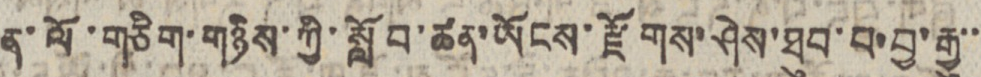ན་ལོ་གཅིག་གཉིས་ཀྱི་སློབ་ཚན་ཡོངས་རྫོགས་ཤེས་ཐུབ་པ་བྱ་རྒྱུ་་་
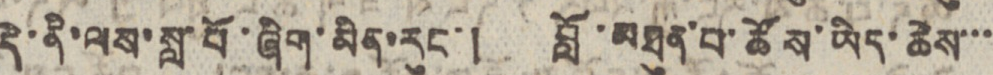དེ་ནི་ལས་སླ་པོ་ཞིག་མིན་རུང་། བློ་མཐུན་པ་ཚོས་ཡིད་ཆེས་་་
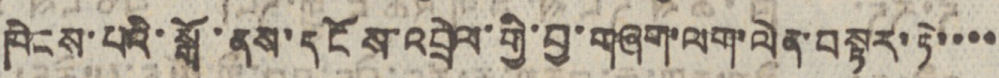ཁེངས་པའི་སྒོ་ནས་དངོས་འབྲེལ་གྱི་བྱ་གཞག་ལག་ལེན་བསྟར་ཏེ་་་་
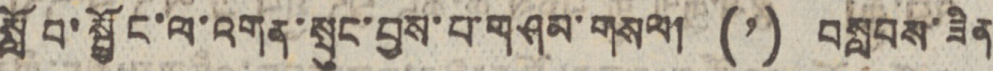སློབ་སྦྱོང་ལ་འགན་སྲུང་བྱས་པ་གཤམ་གསལ། (༡) བསླབས་ཟིན
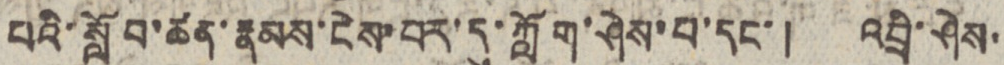པའི་སློབ་ཚན་རྣམས་ངེས་པར་དུ་ཀློག་ཤེས་པ་དང་། འབྲི་ཤེས་
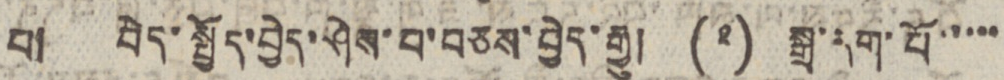པ། བེད་སྤྱོད་བྱེད་ཤེས་པ་བཅས་བྱེད་རྒྱུ། (༢) སྒྲ་དག་པོ་་་་་
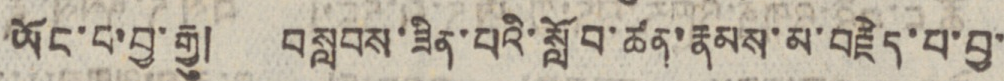ཡོང་བ་བྱ་རྒྱུ། བསླབས་ཟིན་པའི་སློབ་ཚན་རྣམས་མ་བརྗེད་པ་བྱ་
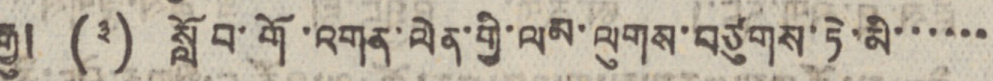རྒྱུ། (༣) སློབ་གོ་འགན་ལེན་གྱི་ལམ་ལུགས་བཙུགས་ཏེ་མི་་་་་་
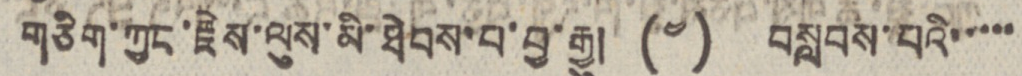གཅིག་ཀྱང་རྗེས་ལུས་མི་ཐེབས་བ་བྱ་རྒྱུ། (༤) བསླབས་པའི་་་་་
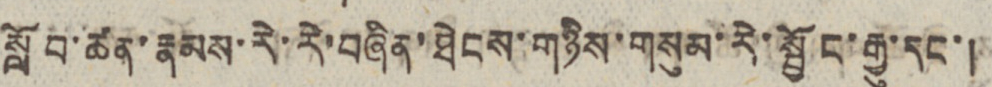སློབ་ཚན་རྣམས་རེ་རེ་བཞིན་ཐེངས་གཉིས་གསུམ་རེ་སྦྱོང་རྒྱུ་དང་།
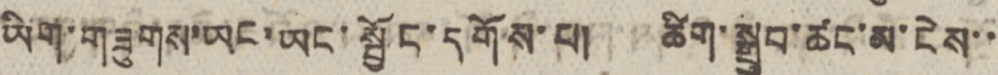ཡིག་གཟུགས་ཡང་ཡང་སྦྱོང་དགོས་པ། ཚིག་སྒྲུབ་ཚང་མ་ངེས་་
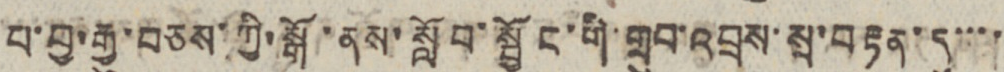པ་བྱ་རྒྱུ་བཅས་ཀྱི་སྒོ་ནས་སློབ་སྦྱོང་གི་གྲུབ་འབྲས་སྲ་བརྟན་དུ་་་་
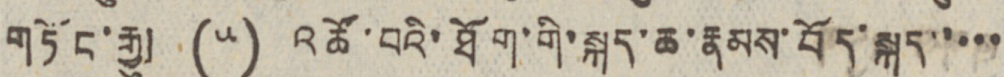གཏོང་རྒྱུ། (༥) འཚོ་བའི་ཐོག་གི་སྐད་ཆ་རྣམས་བོད་སྐད་་་་་
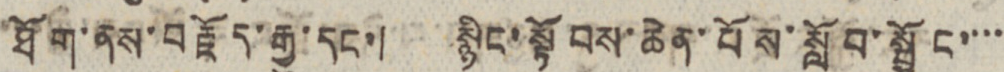ཐོག་ནས་བརྗོད་རྒྱུ་དང་། སྙིང་སྟོབས་ཆེན་པོས་སློབ་སྦྱོང་་་་
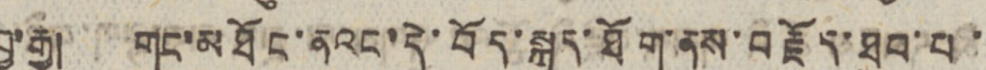བྱ་རྒྱུ། གང་མཐོང་ནའང་དེ་བོད་སྐད་ཐོག་ནས་བརྗོད་ཐུབ་པ་
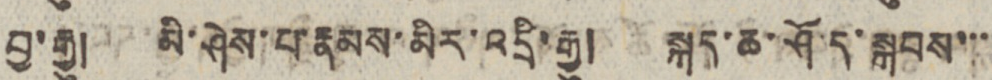བྱ་རྒྱུ། མི་ཤེས་པ་རྣམས་མིར་འདྲི་རྒྱུ། སྐད་ཆ་ཤོད་སྐབས་་་་
